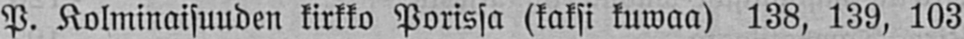P. Kolminaisuuden kirkko Porissa (kaksi kuwaa) 138, 139, 103
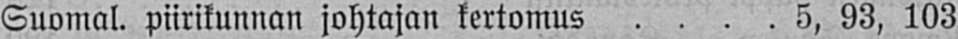Suomal. piirikunnan johtajan kertomus 5, 93, 103
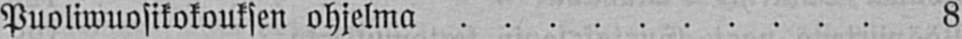Puoliwuosikokouksen ohjelma 8
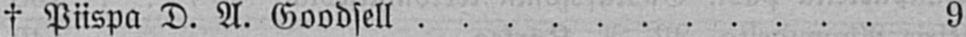† Piispa D. A. Goodsell 9
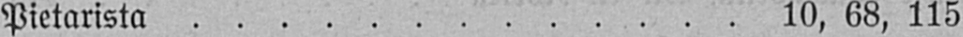Pietarista 10, 68, 115
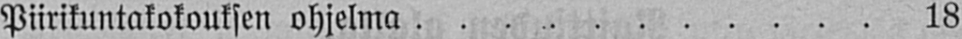Piirikuntakokouksen ohjelma 18
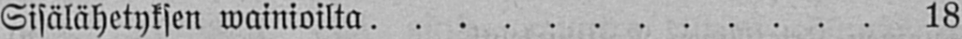Sisälähetyksen wainioilta 18
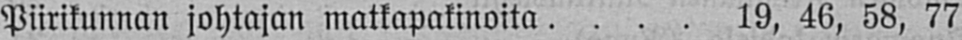Piirikunnan johtajan matkapakinoita 19, 46, 58, 77
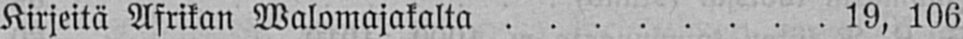Kirjeitä Afrikan Walomajakalta 19, 106
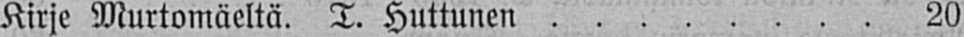Kirje Murtomäeltä. T. Huttunen 20
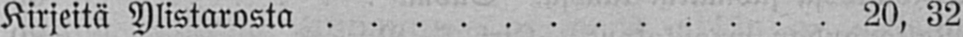Kirjeitä Ylistarosta 20, 32
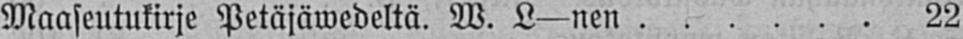Maaseutukirje Petäjäwedeltä. W. L —nen 22
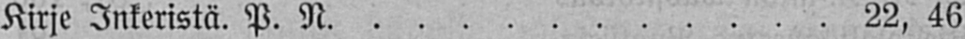Kirje Inkeristä. P. N 22, 46
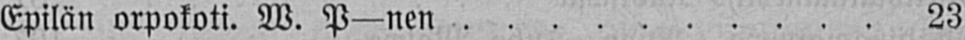Epilän orpokoti. W. P—nen 23
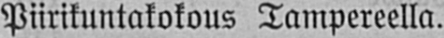Piirikuntakokous Tampereella.
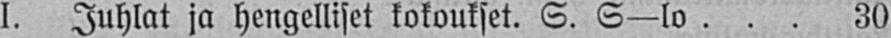I. Juhlat ja hengelliset kokoukset. S. S—lo 30
